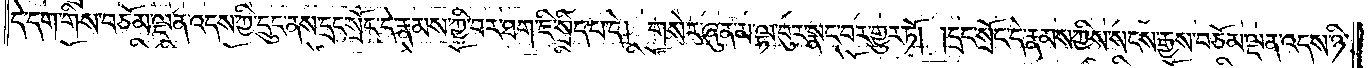དེ་དག་གིས་བཅོམ་ལྡན་འདས་ཀྱི་དྲུང་ནས་དྲང་སྲོང་དེ་རྣམས་ཀྱི་བར་ཐག་ཇི་སྲིད་པ་དེ། གསེར་ཞུན་མ་ལྟ་བུར་སྣང་བར་གྱུར་ཏོ། །དྲང་སྲོང་དེ་རྣམས་ཀྱིས་སངས་རྒྱས་བཅོམ་ལྡན་འདས་ཉི་
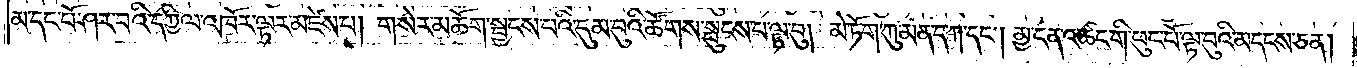མ་དང་པོ་ཤར་བའི་དཀྱིལ་འཁོར་ལྟར་མཛེས་པ། གསེར་མཆོག་སྦྱངས་པའི་དུམ་བུའི་ཚོགས་སྤུངས་པ་ལྟ་བུ། མེ་ཏོག་ཀུ་མན་ད་ཀ་དང༌། མྱ་ངན་འཚང་གི་ཕུང་པོ་ལྟ་བུའི་མདངས་ཅན།
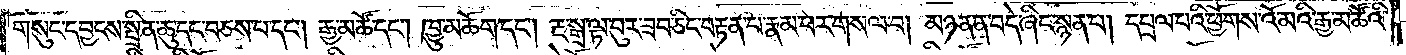གསུང་དབྱངས་སྤྲིན་ཆུ་དང་བཅས་པ་དང༌། རྒྱ་མཚོ་དང༌། ཁྱུ་མཆོག་དང༌། རྔ་སྒྲ་ལྟ་བུར་ཟབ་ཅིང་བརྟན་པ་རྣམ་པར་གསལ་བ། མཉན་ན་བདེ་ཞིང་སྙན་པ། དཔྲལ་པའི་ཕྱོགས་འོ་མའི་རྒྱ་མཚོའི་
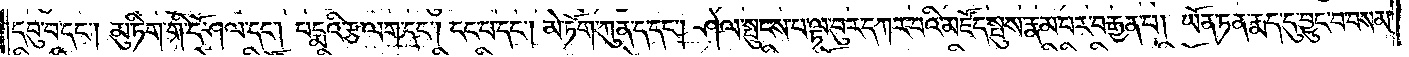དབུ་བ་དང༌། མུ་ཏིག་གི་དོ་ཤལ་དང༌། པདྨའི་རྩ་ལག་དང༌། དང་པ་དང༌། མེ་ཏོག་ཀུན་ད་དང༌། ཤེལ་སྤུངས་པ་ལྟ་བུར་དཀར་བའི་མཛོད་སྤུས་རྣམ་པར་བརྒྱན་པ། ཡོན་ཏན་རྨད་དུ་བྱུང་བ་བསམ་
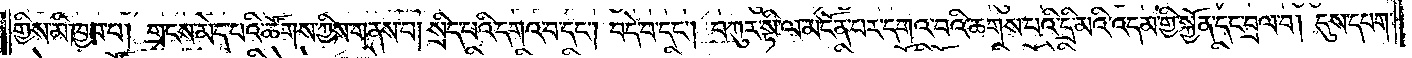གྱིས་མི་ཁྱབ་པ། གྲངས་མེད་པའི་ཚོགས་ཀྱིས་གནས་པ། སྲིད་པའི་དགའ་བ་དང༌། བདེ་བ་དང༌། བཀུར་སྟི་ལ་མངོན་པར་དགའ་བའི་ཆགས་པའི་དྲི་མའི་འདམ་གྱི་སྐྱོན་དང་བྲལ་བ། དུས་དཔག་
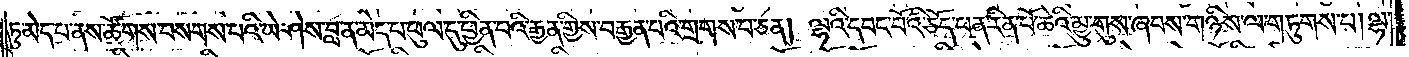ཏུ་མེད་པ་ནས་ཚོགས་བསགས་པའི་ཡེ་ཤེས་བླ་ན་མེད་པ་ཕུལ་དུ་ཕྱིན་པའི་རྒྱན་གྱིས་བརྒྱན་པའི་གྲགས་པ་ཅན། ལྷའི་དབང་པོའི་ཅོད་པན་རིན་པོ་ཆེའི་མྱུ་གུས་ཞབས་གཉིས་ལ་གཏུགས་པ། ལྷ་
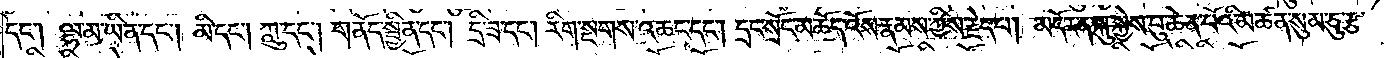དང༌། ལྷ་མ་ཡིན་དང༌། མི་དང༌། ཀླུ་དང༌། གནོད་སྦྱིན་དང༌། དྲི་ཟ་དང༌། རིག་སྔགས་འཆང་དང༌། དྲང་སྲོང་མཆོད་འོས་རྣམས་ཀྱིས་རྗེད་པ། མདོར་ན་སྐུ་སྐྱེས་བུ་ཆེན་པོའི་མཚན་སུམ་ཅུ་རྩ་
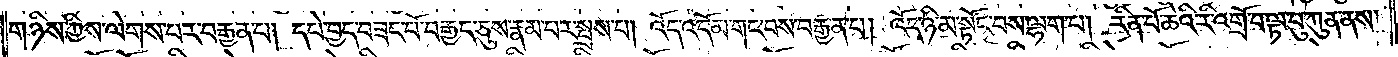གཉིས་ཀྱིས་ལེགས་པར་བརྒྱན་པ། དཔེ་བྱད་བཟང་པོ་བརྒྱད་ཅུས་རྣམ་པར་སྤྲས་པ། འོད་འདོམ་གང་བས་བརྒྱན་པ། འོད་ཉི་མ་སྟོང་བས་ལྷག་པ། རིན་པོ་ཆེའི་རི་འགྲོ་བ་ལྟ་བུ་ཀུན་ནས་
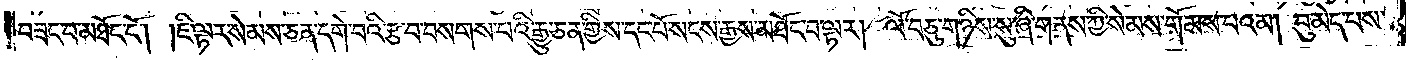བཟང་བ་མཐོང་ངོ༌། །ཇི་ལྟར་སེམས་ཅན་དགེ་བའི་རྩ་བ་བསགས་པའི་རྒྱུ་ཅན་གྱིས་དང་པོ་སངས་རྒྱས་མཐོང་བ་ལྟར། ལོ་བཅུ་གཉིས་སུ་ཞི་གནས་ཀྱི་སེམས་གོམས་པའམ། བུ་མེད་པས་
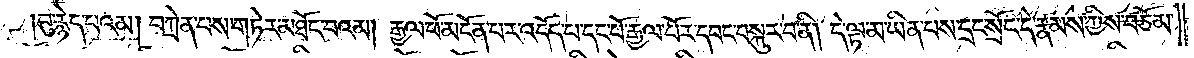བུ་རྙེད་པའམ། བཀྲེན་པས་གཏེར་མཐོང་བའམ། རྒྱལ་པོ་མངོན་པར་འདོད་པ་དང་པོ་རྒྱལ་པོར་དབང་བསྐུར་བ་ནི། དེ་ལྟ་མ་ཡིན་པས་དྲང་སྲོང་དེ་རྣམས་ཀྱིས་བཅོམ་
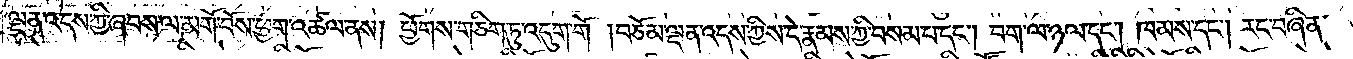ལྡན་འདས་ཀྱི་ཞབས་ལ་མགོ་བོས་ཕྱག་འཚལ་ནས། ཕྱོགས་གཅིག་ཏུ་འདུག་གོ །བཅོམ་ལྡན་འདས་ཀྱིས་དེ་རྣམས་ཀྱིས་བསམ་པ་དང༌། བག་ལ་ཉལ་དང༌། ཁམས་དང༌། རང་བཞིན་
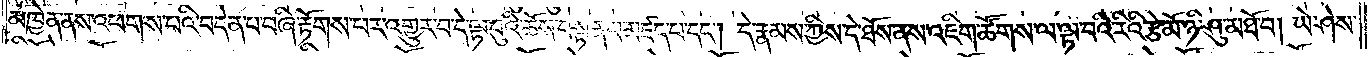མཁྱེན་ནས་འཕགས་པའི་བདེན་པ་བཞི་རྟོགས་པར་འགྱུར་བ་དེ་ལྟ་བུའི་ཆོས་བསྟན་པ་མཛད་པ་དང༌། དེ་རྣམས་ཀྱིས་དེ་ཐོས་ནས་འཇིག་ཚོགས་ལ་ལྟ་བའི་རིའི་རྩེ་མོ་ཉི་ཤུ་མཐོ་བ། ཡེ་ཤེས་
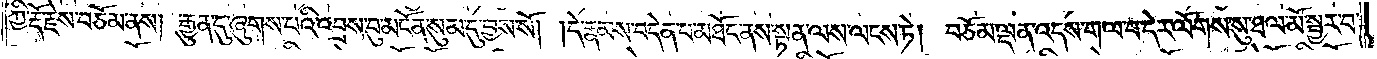ཀྱི་རྡོ་རྗེས་བཅོམ་ནས། རྒྱུན་དུ་ཞུགས་པའི་འབྲས་བུ་མངོན་སུམ་དུ་བྱས་སོ། །དེ་རྣམས་བདེན་པ་མཐོང་ནས་སྟན་ལས་ལངས་ཏེ། བཅོམ་ལྡན་འདས་ག་ལ་བ་དེར་ལོགས་སུ་ཐལ་མོ་སྦྱར་བ་
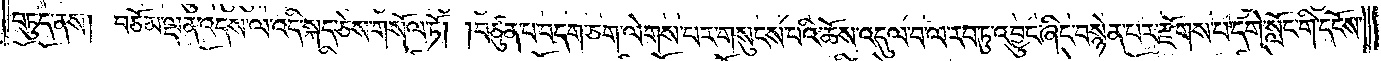བཏུད་ནས། བཅོམ་ལྡན་འདས་ལ་འདི་སྐད་ཅེས་གསོལ་ཏོ། །བཙུན་པ་བདག་ཅག་ལེགས་པར་གསུངས་པའི་ཆོས་འདུལ་བ་ལ་རབ་ཏུ་འབྱུང་ཞིང་བསྙེན་པར་རྫོགས་པ་དགེ་སློང་གི་དངོས་
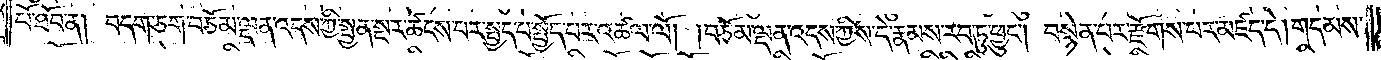པོ་ཐོབ་ན། བདག་ཅག་བཅོམ་ལྡན་འདས་ཀྱི་སྤྱན་སྔར་ཚངས་པར་སྤྱད་པ་སྤྱོད་པར་འཚལ་ལོ། །བཅོམ་ལྡན་འདས་ཀྱིས་དེ་རྣམས་རབ་ཏུ་ཕྱུང༌། བསྙེན་པར་རྫོགས་པར་མཛད་དེ། གདམས་
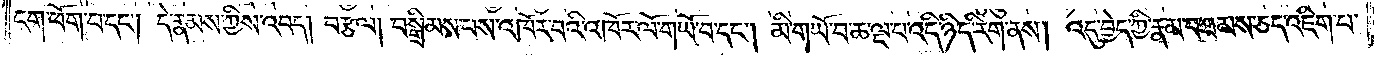ངག་ཕོག་པ་དང༌། དེ་རྣམས་ཀྱིས་འབད། བརྩལ། བསྒྲིམས་པས་འཁོར་བའི་འཁོར་ལོ་གཡོ་བ་དང༌། མི་གཡོ་བ་ཆ་ལྔ་པ་འདི་ཉིད་རིག་ནས། འདུ་བྱེད་ཀྱི་རྣམ་པ་ཐམས་ཅད་འཇིག་པ་
